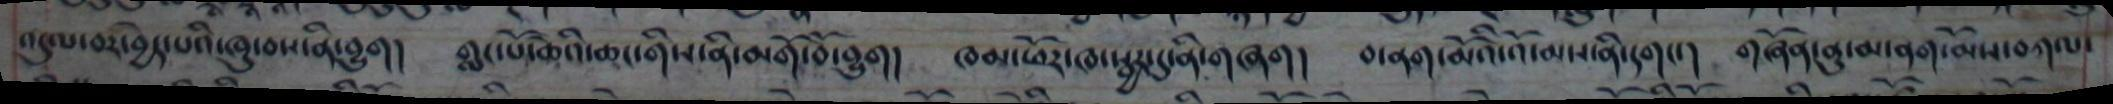འདུལ་བར་བྱེད་པའི་ཁུ་བས་ནི་བྱུག། གླང་པོ་ཆེའི་ཆང་གིས་ནི་མགོ་བོ་བྱུག། ཁམ་ཕོར་ཁ་སྦྱར་དུ་ནི་གཞག། བ་ནག་མོའི་འོ་མས་ནི་དགང་། གཞོན་ནུ་མ་ནག་མོས་བཀལ་
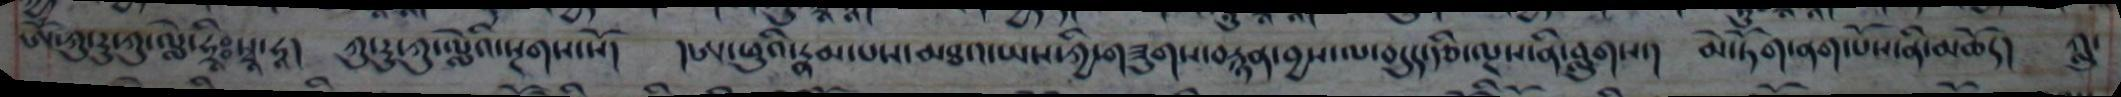ཨོཾ་ཀུ་རུ་ཀུ་ལླེ་ཧྲཱི་སྭཱ་ཧཱ། ཀུ་རུ་ཀུ་ལླེའི་སྔགས་སོ། །ཨ་ཕུའི་རྣམ་པས་མཐའ་ཡས་ཀྱི་གཟུགས་བརྙན་བྱས་ལ་བདུད་རྩི་ལྔས་ནི་བླུགས་། མེ་ཏོག་ནག་པོས་ནི་མཆོད། ཀླུ་
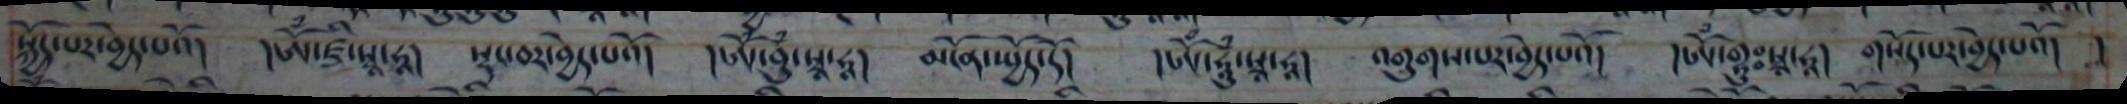སྐྱོད་པར་བྱེད་པའོ། ཨོཾ་ཛྲི་སྭཱ་ཧཱ། སྡང་བར་བྱེད་པའོ། །ཨོཾ་བུཾ་སྭཱ་ཧཱ། མངོན་སྤྱོད་དོ། །ཨོཾ་ཧཱུཾ་སྭཱ་ཧཱ། འགུགས་པར་བྱེད་པའོ། །ཨོཾ་གྷུཿ  སྭཱ་ཧཱ། གསོད་པར་བྱེད་པའོ། །
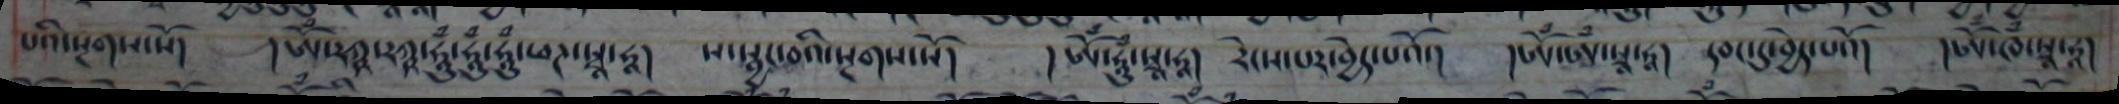པའི་སྔགས་སོ། །ཨོཾ་རཀྵ་རཀྵ་ཧཱུཾ་ཧཱུཾ་ཧཱུཾ་ཕཌ་སྭཱ་ཧཱ། ས་སྦྱང་བའི་སྔགས་སོ། །ཨོཾ་ཧཱུཾ་སྭཱ་ཧཱ། རེངས་པར་བྱེད་པའོ། །ཨོཾ་ཨཾ་སྭཱ་ཧཱ། དབང་དུ་བྱེད་པའོ། །ཨོཾ་ཁཾ་སྭཱ་ཧཱ།
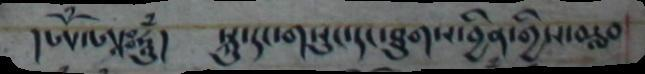།ཨོཾ་ཨཱཿ  ཧཱུཾ། སྐུ་དང་གསུང་དང་ཐུགས་བྱིན་གྱིས་བརླབ
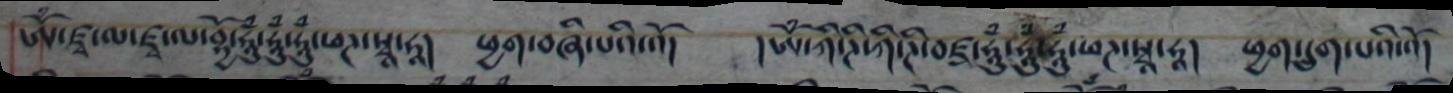ཨོཾ་ཛྭ་ལ་ཛྭ་ལ་བྷྱོ་ཧཱུཾ་ཧཱུཾ་ཧཱུཾ་ཕཌ་སྭཱ་ཧཱ། ཕྱག་བཞི་པའི་འོ། །ཨོཾ་ཀི་ཌི་ཀི་ཌི་བཛྲ་ཧཱུཾ་ཧཱུཾ་ཕཌ་སྭཱ་ཧཱ། ཕྱག་དྲུག་པའི་འོ།
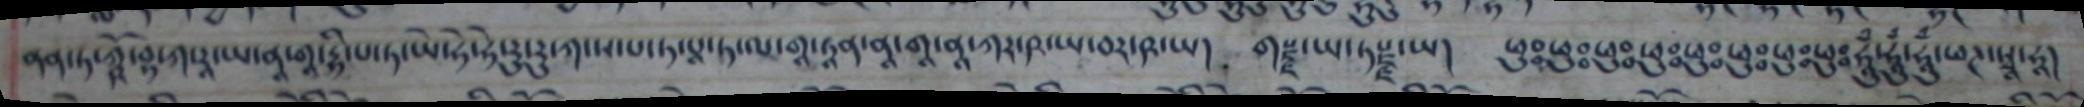ནན་ཏ་ཀྵོ་བྷ་ཀ་རཱ་ཡ་ནཱ་གཱ་དྷི་པ་ཏ་ཡེ་ཧེ་ཧེ་རུ་རུ་ཀ་ས་པ་ཏ་པཱ་ཏ་ལ་གཱ་ནཱ་གཱ་ནཱ་ཀར་ཥ་ཡ།  གརྫྗ་ཡ་ཏརྫྗ་ཡ། ཕུཿཿ ཕུཿཿ ཕུཿ ཕུཿ ཕུཿ ཕུཿ ཕུཿ ཕུཿ ཕུཿ ཕུཿ  ཧཱུྃ་ཧཱུྃ་ཧཱུྃ་ཕཌ་སྭཱ་ཧཱ།
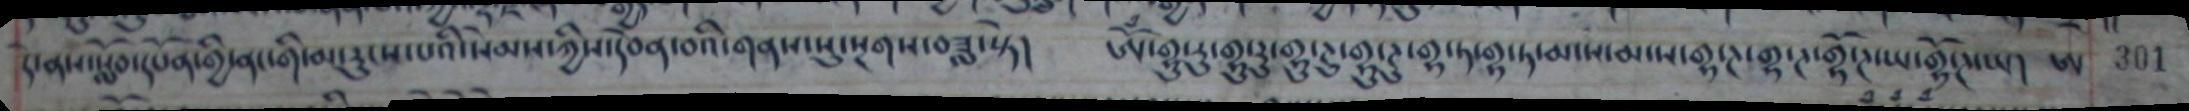དེ་ནས་སློབ་དཔོན་གྱི་ནང་གི་མ་རུངས་པའི་སེམས་ཀྱིས་དབེན་བའི་གནས་སུ་སྔགས་བཟླ་སྟེ།   ཨོྃ་གྷུ་རུ་གྷུ་རུ་གྷུ་རུ་གྷ་ཏ་གྷ་ཏ་མ་ས་མ་ས་གྷ་ཊ་གྷ་ཊ་གྷོ་ཊ་ཡ་གྷོ་ཊ་ཡ།  ཨ་301
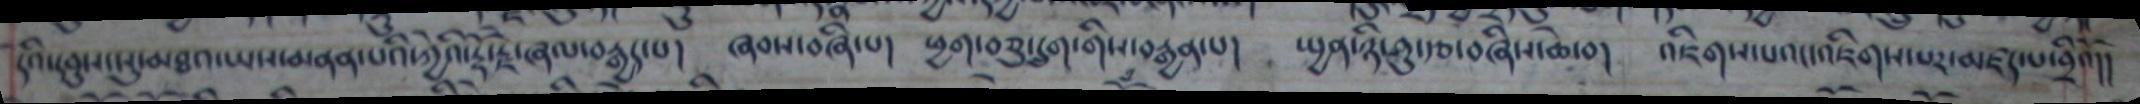དེའི་དབུས་སུ་མཐའ་ཡས་མནན་པའི་ཀྱེའི་རྡོ་རྗེ་ཞལ་བརྒྱད་པ།  ཞབས་བཞི་པ།  ཕྱག་བཅུ་དྲུག་གིས་བརྒྱན་པ།  སྤྱན་ཉི་ཤུ་རྩ་བཞིས་ཆེ་བ།  འཇིགས་པའང་འཇིགས་པར་མཛད་པ་བྲིའོ།།
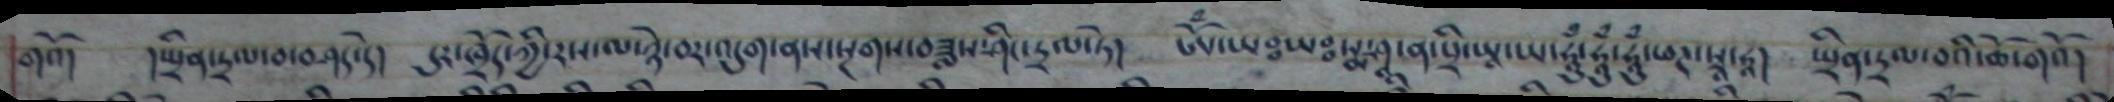གའོ།   །སྤྲིན་དྲལ་བ་བཤད་དེ།  དུར་ཁྲོད་ཀྱི་རས་ལ་ཉེ་བར་འདུག་ནས་སྔགས་བཟླས་ཤིང་དྲལ་ཏེ།  ཨོྃ་ཡཿཡཿསྨ་ཤ་ན་པྲི་ཡཱ་ཡ་ཧཱུྃ་ཧཱུྃ་ཧཱུྃ་ཕཊ་སྭཱ་ཧཱ།   སྤྲིན་དྲལ་བའི་ཆོ་གའོ།
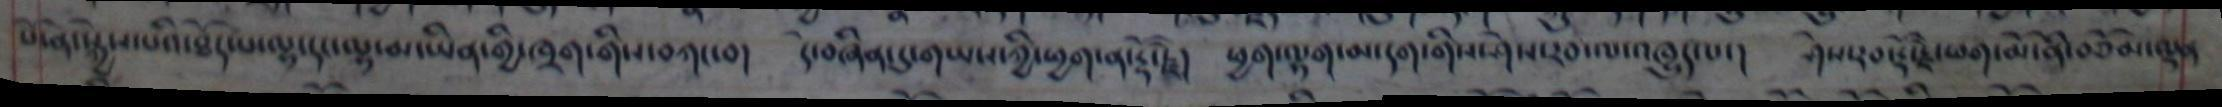པོ་ན་སྐྱེས་པའི་ཐོད་པ་ལྷ་དང་ལྷ་མ་ཡིན་གྱི་ཁྲག་གིས་བཀང་བ།   དེ་བཞིན་དུ་གཡས་ཀྱི་ཕྱག་ན་རྡོ་རྗེ།   ཕྱག་ལྷག་མ་དག་གིས་ཤེས་རབ་ལ་འཁྱུད་པ་།  ཤེས་རབ་རྡོ་རྗེ་ཕག་མོ་ནི་བཅོམ་ལྡན
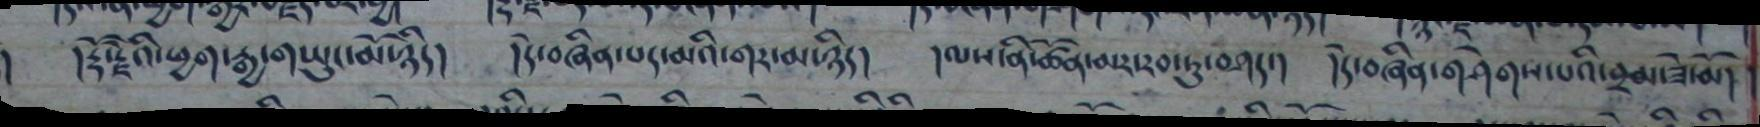། རྡོ་རྗེའི་ཕྱག་རྒྱ་གཡུང་མོ་ཉིད།   ། དེ་བཞིན་པར་མའི་གར་མ་ཉིད།       །ལས་ནི་ཚོན་མར་རབ་ཏུ་བཤད།     །དེ་བཞིན་གཤེགས་པའི་བྲམ་ཟེ་མོ།
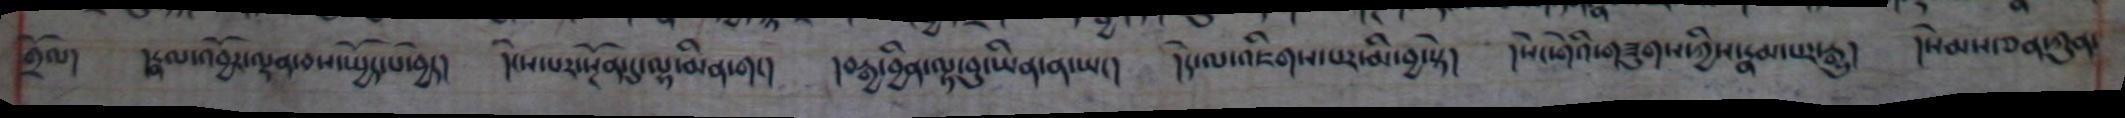གྲོལ། །རྣལ་འབྱོར་ལྡན་བས་སྤྱོད་པ་བྱེད། །ངེས་པར་སྔོན་དུ་ལྷ་མིན་གང། །བརྒྱ་བྱིན་ལྟ་བུ་ཡིན་ན་ཡང། །དེ་ལ་འཇིགས་པར་མི་བྱ་སྟེ། །སེང་གེའི་གཟུགས་ཀྱིས་རྣམ་པར་རྒྱུ། །སེམས་ཅན་ཀུན་
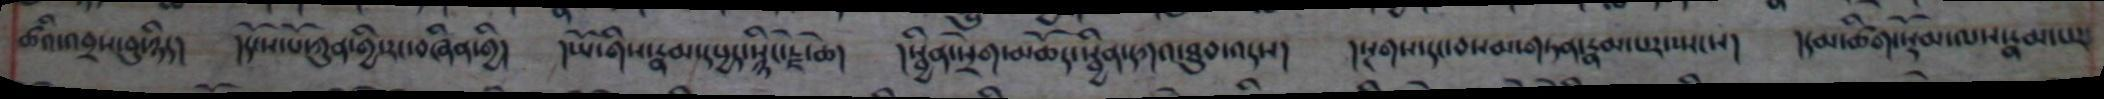ཚའི་འབྲས་བུ་ཉིད། །དངོས་པོ་ཀུན་གྱི་རང་བཞིན་གྱི། །ཡོ་གིས་རྣམ་དཔྱད་སྙིང་རྗེ་ཆེ། །སྦྱིན་སྲེག་མཆོད་སྦྱིན་དཀའ་ཐུབ་འདས། །སྔགས་དང་བསམ་གཏན་རྣམ་པར་སྤངས། །དམ་ཚིག་སྡོམ་ལས་རྣམ་པར་
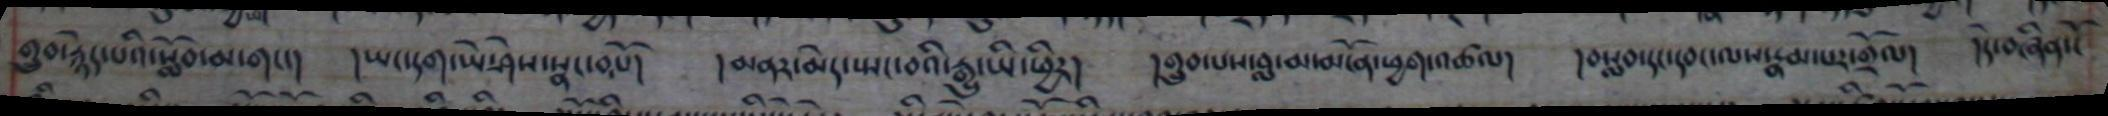གྲུབ་རྙེད་པའི་སློབ་མ་གང་། །ཡང་དག་ཡེ་ཤེས་སྣང་བ་པོ། །མནར་མེད་སྤང་བའི་རྒྱུ་ཡི་ཕྱིར། །གྲུབ་པས་བླ་མ་མངོན་ཕྱག་འཚལ། །བསླབ་དང་དབང་ལས་རྣམ་པར་གྲོལ། །དེ་བཞིན་ངོ
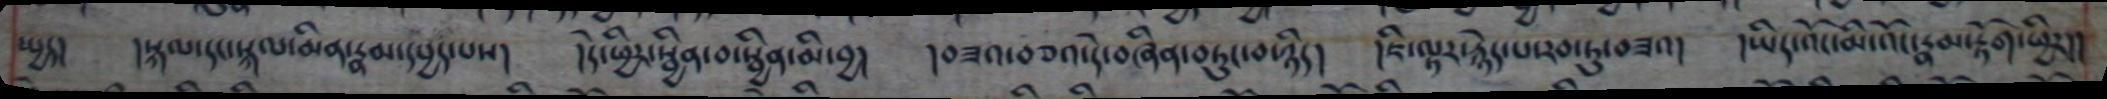སྤྱད། །སྐལ་དང་སྐལ་མིན་རྣམ་དཔྱད་པས། །དེ་ཕྱིར་སྦྱིན་མི་བྱ། །བཟའ་བཅའ་དེ་བཞིན་བཏུང་བ་ཉིད། །ཇི་ལྟར་རྙེད་པ་རབ་ཏུ་བཟའ། །ཡིད་འོང་མི་འོང་རྣམ་རྟོག་ཕྱིར།།
